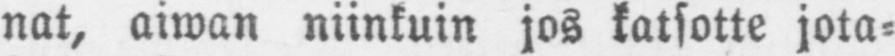nat, aiwan niinkuin jos katsotte jota-
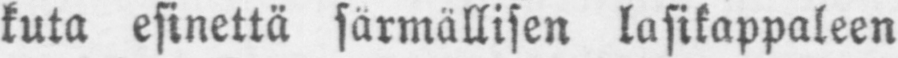kuta esinettä särmällisen lasikappaleen
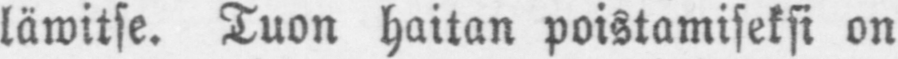läwitse. Tuon haitan poistamiseksi on
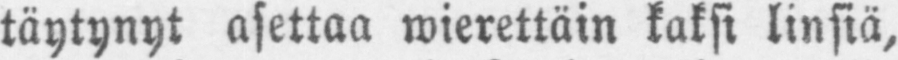täytynyt asettaa wierettäin kaksi linsiä,
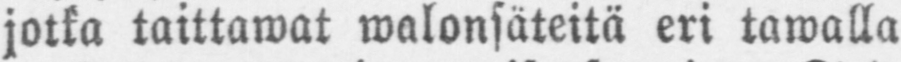jotka taittawat walonsäteitä eri tawalla
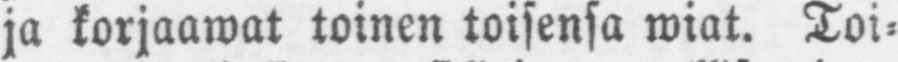ja korjaawat toinen toisensa wiat. Toi-
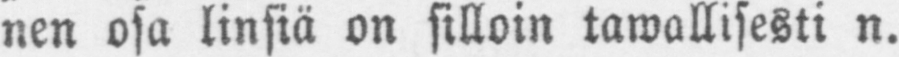nen osa linsiä on silloin tawallisesti n.
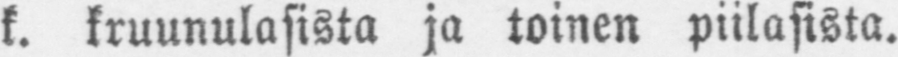k. kruunulasista ja toinen piilasista.
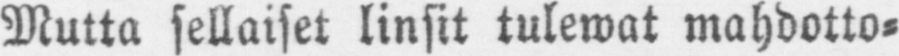Mutta sellaiset linsit tulewat mahdotto-
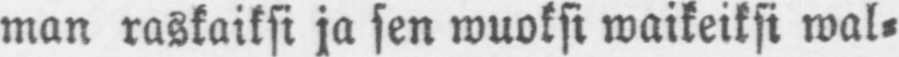man raskaiksi ja sen wuoksi waikeiksi wal-
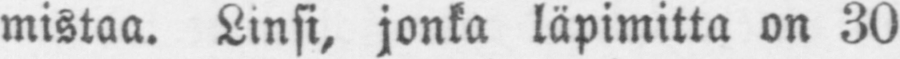mistaa. Linsi, jonka läpimitta on 30
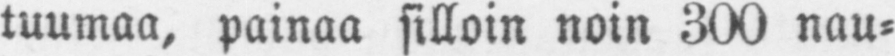tuumaa, painaa silloin noin 300 nau-
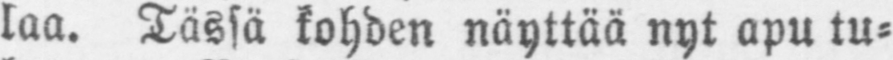laa. Tässä kohden näyttää nyt apu tu-
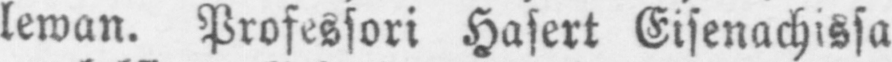leman. Professori Hasert Eisenachissa
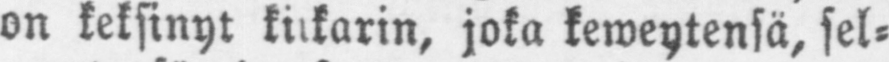on keksinyt kiikarin, joka keweytensä, sel-
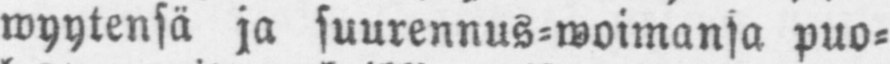wyytensä ja suurennus-woimansa puo-
